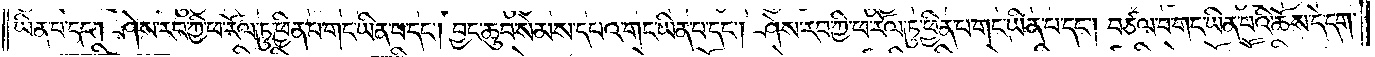ཡིན་པ་དང༌། ཤེས་རབ་ཀྱི་ཕ་རོལ་ཏུ་ཕྱིན་པ་གང་ཡིན་པ་དང༌། བྱང་ཆུབ་སེམས་དཔའ་གང་ཡིན་པ་དང༌། ཤེས་རབ་ཀྱི་ཕ་རོལ་ཏུ་ཕྱིན་པ་གང་ཡིན་པ་དང༌། བཙལ་བ་གང་ཡིན་པའི་ཆོས་དེ་དག་
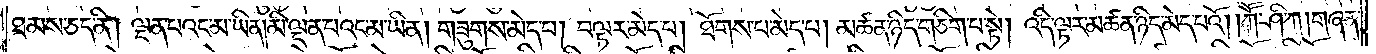ཐམས་ཅད་ནི། ལྡན་པའང་མ་ཡིན། མི་ལྡན་པའང་མ་ཡིན། གཟུགས་མེད་པ། བལྟར་མེད་པ། ཐོགས་པ་མེད་པ། མཚན་ཉིད་གཅིག་པ་སྟེ། འདི་ལྟར་མཚན་ཉིད་མེད་པའོ། །ཀཽ་ཤི་ཀ། གཞན་
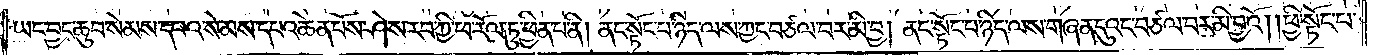ཡང་བྱང་ཆུབ་སེམས་དཔའ་སེམས་དཔའ་ཆེན་པོས་ཤེས་རབ་ཀྱི་ཕ་རོལ་ཏུ་ཕྱིན་པ་ནི། ནང་སྟོང་པ་ཉིད་ལས་ཀྱང་བཙལ་བར་མི་བྱ། ནང་སྟོང་པ་ཉིད་ལས་གཞན་དུའང་བཙལ་བར་མི་བྱའོ། །ཕྱི་སྟོང་པ་
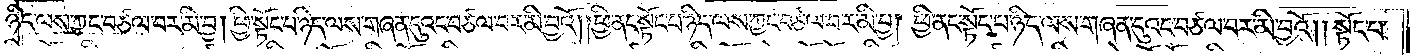ཉིད་ལས་ཀྱང་བཙལ་བར་མི་བྱ། ཕྱི་སྟོང་པ་ཉིད་ལས་གཞན་དུའང་བཙལ་བར་མི་བྱའོ། །ཕྱི་ནང་སྟོང་པ་ཉིད་ལས་ཀྱང་བཙལ་བར་མི་བྱ། ཕྱི་ནང་སྟོང་པ་ཉིད་ལས་གཞན་དུའང་བཙལ་བར་མི་བྱའོ། །སྟོང་པ་
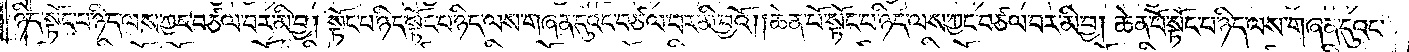ཉིད་སྟོང་པ་ཉིད་ལས་ཀྱང་བཙལ་བར་མི་བྱ། སྟོང་པ་ཉིད་སྟོང་པ་ཉིད་ལས་གཞན་དུའང་བཙལ་བར་མི་བྱའོ། །ཆེན་པོ་སྟོང་པ་ཉིད་ལས་ཀྱང་བཙལ་བར་མི་བྱ། ཆེན་པོ་སྟོང་པ་ཉིད་ལས་གཞན་དུའང་
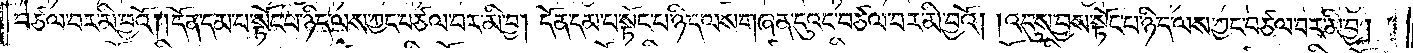བཙལ་བར་མི་བྱའོ། དོན་དམ་པ་སྟོང་པ་ཉིད་ལས་ཀྱང་བཙལ་བར་མི་བྱ། དོན་དམ་པ་སྟོང་པ་ཉིད་ལས་གཞན་དུའང་བཙལ་བར་མི་བྱའོ། །འདུས་བྱས་སྟོང་པ་ཉིད་ལས་ཀྱང་བཙལ་བར་མི་བྱ།
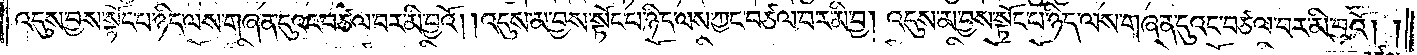འདུས་བྱས་སྟོང་པ་ཉིད་ལས་གཞན་དུའང་བཙལ་བར་མི་བྱའོ། །འདུས་མ་བྱས་སྟོང་པ་ཉིད་ལས་ཀྱང་བཙལ་བར་མི་བྱ། འདུས་མ་བྱས་སོང་པ་ཉིད་ལས་གཞན་དུའང་བཙལ་བར་མི་བྱའོ། །
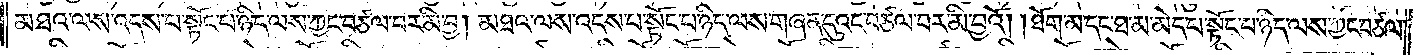མཐའ་ལས་འདས་པ་སྟོང་པ་ཉིད་ལས་ཀྱང་བཙལ་བར་མི་བྱ། མཐའ་ལས་འདས་པ་སྟོང་པ་ཉིད་ལས་གཞན་དུའང་བཙལ་བར་མི་བྱའོ། །ཐོག་མ་དང་ཐ་མ་མེད་པ་སྟོང་པ་ཉིད་ལས་ཀྱང་བཙལ་
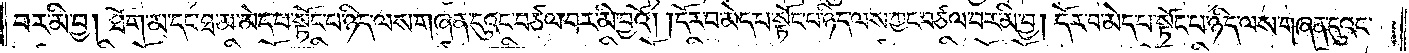བར་མི་བྱ། ཐོག་མ་དང་ཐ་མ་མེད་པ་སྟོང་པ་ཉིད་ལས་གཞན་དུའང་བཙལ་བར་མི་བྱའོ། །དོར་བ་མེད་པ་སྟོང་པ་ཉིད་ལས་ཀྱང་བཙལ་བར་མི་བྱ། དོར་བ་མེད་པ་སྟོང་པ་ཉིད་ལས་གཞན་དུའང་
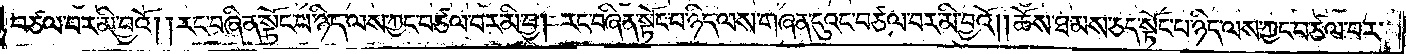བཙལ་བར་མི་བྱའོ། །རང་བཞིན་སྟོང་པ་ཉིད་ལས་ཀྱང་བཙལ་བར་མི་བྱ། རང་བཞིན་སྟོང་པ་ཉིད་ལས་གཞན་དུའང་བཙལ་བར་མི་བྱའོ། །ཆོས་ཐམས་ཅད་སྟོང་པ་ཉིད་ལས་ཀྱང་བཙལ་བར་
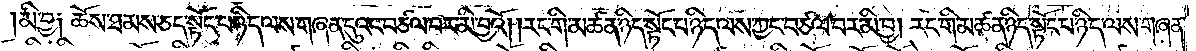མི་བྱ། ཆོས་ཐམས་ཅད་སྟོང་པ་ཉིད་ལས་གཞན་དུའང་བཙལ་བར་མི་བྱའོ། །རང་གི་མཚན་ཉིད་སྟོང་པ་ཉིད་ལས་ཀྱང་བཙལ་བར་མི་བྱ། རང་གི་མཚན་ཉིད་སྟོང་པ་ཉིད་ལས་གཞན་
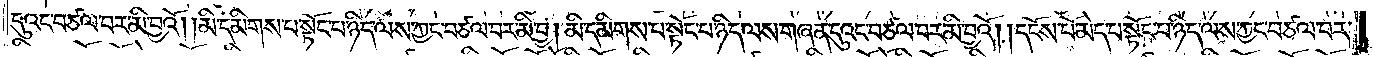དུའང་བཙལ་བར་མི་བྱའོ། །མི་དམིགས་པ་སྟོང་པ་ཉིད་ལས་ཀྱང་བཙལ་བར་མི་བྱ། མི་དམིགས་པ་སྟོང་པ་ཉིད་ལས་གཞན་དུའང་བཙལ་བར་མི་བྱའོ། །དངོས་པོ་མེད་པ་སྟོང་པ་ཉིད་ལས་ཀྱང་བཙལ་བར་
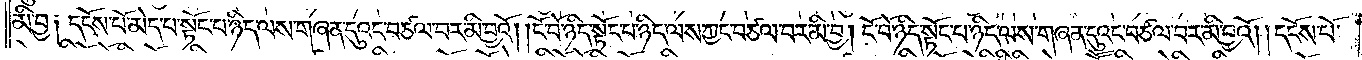མི་བྱ། དངོས་པོ་མེད་པ་སྟོང་པ་ཉིད་ལས་གཞན་དུའང་བཙལ་བར་མི་བྱའོ། །ངོ་བོ་ཉིད་སྟོང་པ་ཉིད་ལས་ཀྱང་བཙལ་བར་མི་བྱ། ངོ་བོ་ཉིད་སྟོང་པ་ཉིད་ལས་གཞན་དུའང་བཙལ་བར་མི་བྱའོ། །དངོས་པོ་
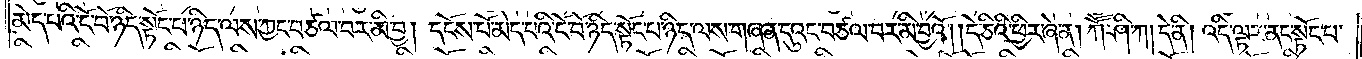མེད་པའི་ངོ་བོ་ཉིད་སྟོང་པ་ཉིད་ལས་ཀྱང་བཙལ་བར་མི་བྱ། དངོས་པོ་མེད་པའི་ངོ་བོ་ཉིད་སྟོང་པ་ཉིད་ལས་གཞན་དུའང་བཙལ་བར་མི་བྱའོ། །དེ་ཅིའི་ཕྱིར་ཞེ་ན། ཀཽ་ཤི་ཀ། དེ་ནི། འདི་ལྟར་ནང་སྟོང་པ་
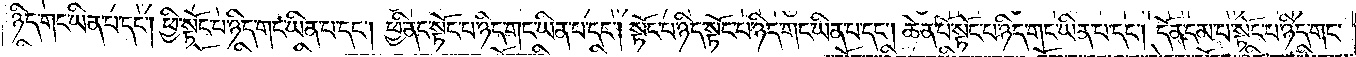ཉིད་གང་ཡིན་པ་དང༌། ཕྱི་སྟོང་པ་ཉིད་གང་ཡིན་པ་དང༌། ཕྱི་ནང་སྟོང་པ་ཉིད་གང་ཡིན་པ་དང༌། སྟོང་པ་ཉིད་སྟོང་པ་ཉིད་གང་ཡིན་པ་དང༌། ཆེན་པོ་སྟོང་པ་ཉིད་གང་ཡིན་པ་དང༌། དོན་དམ་པ་སྟོང་པ་ཉིད་གང་
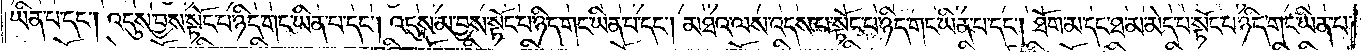ཡིན་པ་དང༌། འདུས་བྱས་སྟོང་པ་ཉིད་གང་ཡིན་པ་དང༌། འདུས་མ་བྱས་སྟོང་པ་ཉིད་གང་ཡིན་པ་དང༌། མཐའ་ལས་འདས་པ་སྟོང་པ་ཉིད་གང་ཡིན་པ་དང༌། ཐོག་མ་དང་ཐ་མ་མེད་པ་སྟོང་པ་ཉིད་གང་ཡིན་པ་
